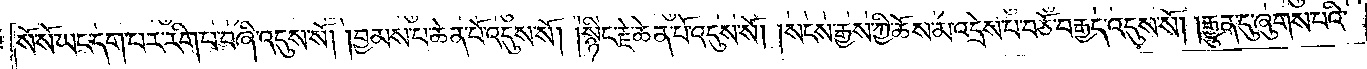སོ་སོ་ཡང་དག་པར་རིག་པ་བཞི་འདུས་སོ། །བྱམས་པ་ཆེན་པོ་འདུས་སོ། །སྙིང་རྗེ་ཆེན་པོ་འདུས་སོ། །སངས་རྒྱས་ཀྱི་ཆོས་མ་འདྲེས་པ་བཅོ་བརྒྱད་འདུས་སོ། །རྒྱུན་དུ་ཞུགས་པའི་
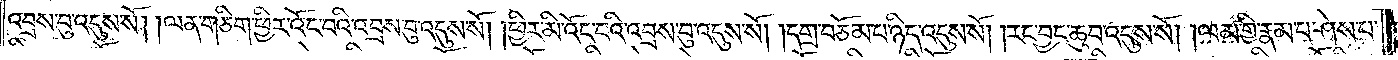འབྲས་བུ་འདུས་སོ། །ལན་གཅིག་ཕྱིར་འོང་བའི་འབྲས་བུ་འདུས་སོ། །ཕྱིར་མི་འོང་བའི་འབྲས་བུ་འདུས་སོ། །དགྲ་བཅོམ་པ་ཉིད་འདུས་སོ། །རང་བྱང་ཆུབ་འདུས་སོ། །ལམ་གྱི་རྣམ་པ་ཤེས་པ་
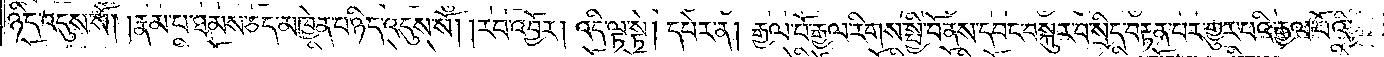ཉིད་འདུས་སོ། །རྣམ་པ་ཐམས་ཅད་མཁྱེན་པ་ཉིད་འདུས་སོ། །རབ་འབྱོར། འདི་ལྟ་སྟེ། དཔེར་ན། རྒྱལ་པོ་རྒྱལ་རིགས་སྤྱི་བོ་ནས་དབང་བསྐུར་བ་སྲིད་བརྟན་པར་གྱུར་པའི་རྒྱལ་པོའི་
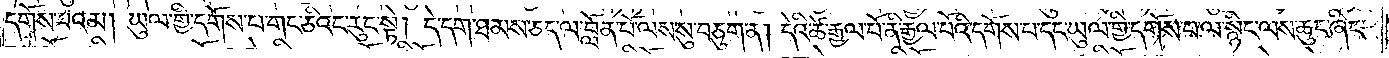དགོས་པའམ། ཡུལ་གྱི་དགོས་པ་གང་ཅིའང་རུང་སྟེ། དེ་དག་ཐམས་ཅད་ལ་བློན་པོ་ལས་སུ་བཅུག་ན། དེའི་ཚེ་རྒྱལ་པོ་ནི་རྒྱལ་པོའི་དགོས་པ་དང་ཡུལ་གྱི་དགོས་པ་ལ་སྙིང་ལས་ཆུང་ཞིང་
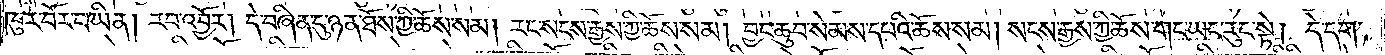ཁུར་བོར་བ་ཡིན། རབ་འབྱོར། དེ་བཞིན་དུ་ཉན་ཐོས་ཀྱི་ཆོས་སམ། རང་སངས་རྒྱས་ཀྱི་ཆོས་སམ། བྱང་ཆུབ་སེམས་དཔའི་ཆོས་སམ། སངས་རྒྱས་ཀྱི་ཆོས་གང་ཡང་རུང་སྟེ། དེ་དག་
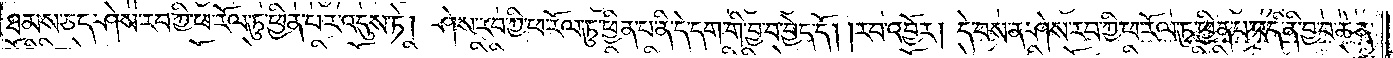ཐམས་ཅད་ཤེས་རབ་ཀྱི་ཕ་རོལ་ཏུ་ཕྱིན་པར་འདུས་ཏེ། ཤེས་རབ་ཀྱི་ཕ་རོལ་ཏུ་ཕྱིན་པ་ནི་དེ་དག་གི་བྱ་བ་བྱེད་དོ། །རབ་འབྱོར། དེ་བས་ན་ཤེས་རབ་ཀྱི་ཕ་རོལ་ཏུ་ཕྱིན་པ་འདི་ནི་བྱ་བ་ཆེན་
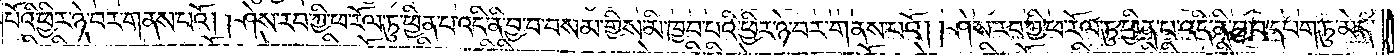པོའི་ཕྱིར་ཉེ་བར་གནས་པའོ། །ཤེས་རབ་ཀྱི་ཕ་རོལ་ཏུ་ཕྱིན་པ་འདི་ནི་བྱ་བ་བསམ་གྱིས་མི་ཁྱབ་པའི་ཕྱིར་ཉེ་བར་གནས་པའོ། །ཤེས་རབ་ཀྱི་ཕ་རོལ་ཏུ་ཕྱིན་པ་འདི་ནི་བྱ་བ་དཔག་ཏུ་མེད་
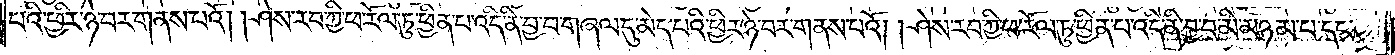པའི་ཕྱིར་ཉེ་བར་གནས་པའོ། །ཤེས་རབ་ཀྱི་ཕ་རོལ་ཏུ་ཕྱིན་པ་འདི་ནི་བྱ་བ་གཞལ་དུ་མེད་པའི་ཕྱིར་ཉེ་བར་གནས་པའོ། །ཤེས་རབ་ཀྱི་ཕ་རོལ་ཏུ་ཕྱིན་པ་འདི་ནི་བྱ་བ་མི་མཉམ་པ་དང་
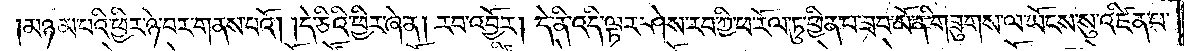མཉམ་པའི་ཕྱིར་ཉེ་བར་གནས་པའོ། །དེ་ཅིའི་ཕྱིར་ཞེ་ན། རབ་འབྱོར། དེ་ནི་འདི་ལྟར་ཤེས་རབ་ཀྱི་ཕ་རོལ་ཏུ་ཕྱིན་པ་ཟབ་མོ་ནི་གཟུགས་ལ་ཡོངས་སུ་འཛིན་པ་
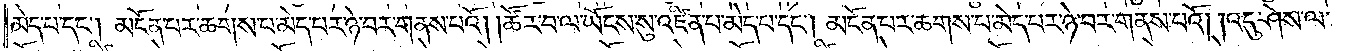མེད་པ་དང༌། མངོན་པར་ཆགས་པ་མེད་པར་ཉེ་བར་གནས་པའོ། །ཚོར་བ་ལ་ཡོངས་སུ་འཛིན་པ་མེད་པ་དང༌། མངོན་པར་ཆགས་པ་མེད་པར་ཉེ་བར་གནས་པའོ། །འདུ་ཤེས་ལ་
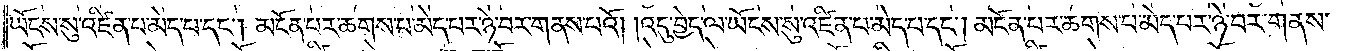ཡོངས་སུ་འཛིན་པ་མེད་པ་དང༌། མངོན་པར་ཆགས་པ་མེད་པར་ཉེ་བར་གནས་པའོ། །འདུ་བྱེད་ལ་ཡོངས་སུ་འཛིན་པ་མེད་པ་དང༌། མངོན་པར་ཆགས་པ་མེད་པར་ཉེ་བར་གནས་
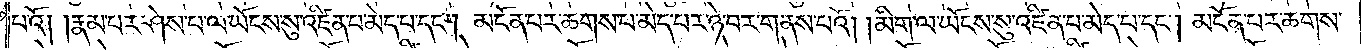པའོ། །རྣམ་པར་ཤེས་པ་ལ་ཡོངས་སུ་འཛིན་པ་མེད་པ་དང༌། མངོན་པར་ཆགས་པ་མེད་པར་ཉེ་བར་གནས་པའོ། །མིག་ལ་ཡོངས་སུ་འཛིན་པ་མེད་པ་དང༌། མངོན་པར་ཆགས་
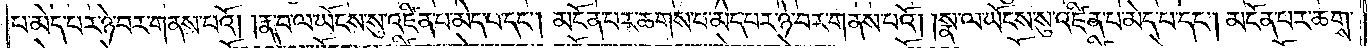པ་མེད་པར་ཉེ་བར་གནས་པའོ། །རྣ་བ་ལ་ཡོངས་སུ་འཛིན་པ་མེད་པ་དང༌། མངོན་པར་ཆགས་པ་མེད་པར་ཉེ་བར་གནས་པའོ། །སྣ་ལ་ཡོངས་སུ་འཛིན་པ་མེད་པ་དང༌། མངོན་པར་ཆགས་
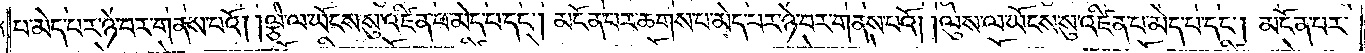པ་མེད་པར་ཉེ་བར་གནས་པའོ། །ལྕེ་ལ་ཡོངས་སུ་འཛིན་པ་མེད་པ་དང༌། མངོན་པར་ཆགས་པ་མེད་པར་ཉེ་བར་གནས་པའོ། །ལུས་ལ་ཡོངས་སུ་འཛིན་པ་མེད་པ་དང༌། མངོན་པར་
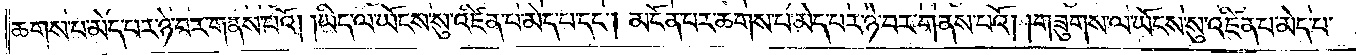ཆགས་པ་མེད་པར་ཉེ་བར་གནས་པའོ། །ཡིད་ལ་ཡོངས་སུ་འཛིན་པ་མེད་པ་དང༌། མངོན་པར་ཆགས་པ་མེད་པར་ཉེ་བར་གནས་པའོ། །གཟུགས་ལ་ཡོངས་སུ་འཛིན་པ་མེད་པ་
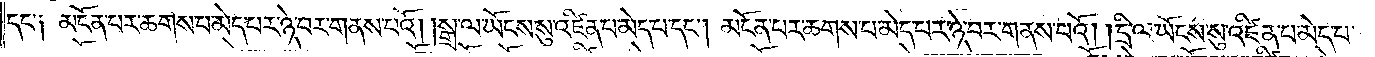དང༌༑ མངོན་པར་ཆགས་པ་མེད་པར་ཉེ་བར་གནས་པའོ། །སྒྲ་ལ་ཡོངས་སུ་འཛིན་པ་མེད་པ་དང༌། མངོན་པར་ཆགས་པ་མེད་པར་ཉེ་བར་གནས་པའོ། །དྲི་ལ་ཡོངས་སུ་འཛིན་པ་མེད་པ་
